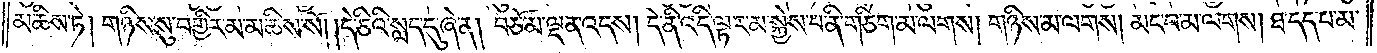མཆིས་ཏེ། གཉིས་སུ་བགྱིར་མ་མཆིས་སོ། །དེ་ཅིའི་སླད་དུ་ཞེ་ན། བཅོམ་ལྡན་འདས། དེ་ནི་འདི་ལྟར་མ་སྐྱེས་པ་ནི་གཅིག་མ་ལགས། གཉིས་མ་ལགས། མང་བ་མ་ལགས། ཐ་དད་པ་མ་
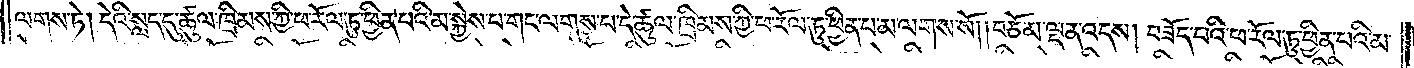ལགས་ཏེ། དེའི་སླད་དུ་ཚུལ་ཁྲིམས་ཀྱི་ཕ་རོལ་ཏུ་ཕྱིན་པའི་མ་སྐྱེས་པ་གང་ལགས་པ་དེ་ཚུལ་ཁྲིམས་ཀྱི་ཕ་རོལ་ཏུ་ཕྱིན་པ་མ་ལགས་སོ། །བཅོམ་ལྡན་འདས། བཟོད་པའི་ཕ་རོལ་ཏུ་ཕྱིན་པའི་མ་
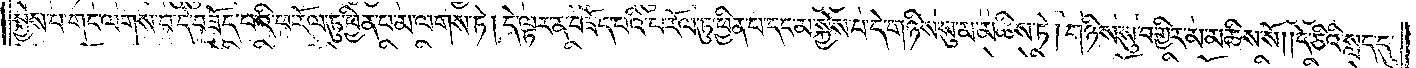སྐྱེས་པ་གང་ལགས་པ་དེ་བཟོད་པའི་ཕ་རོལ་ཏུ་ཕྱིན་པ་མ་ལགས་ཏེ། དེ་ལྟར་ན་བཟོད་པའི་ཕ་རོལ་ཏུ་ཕྱིན་པ་དང་མ་སྐྱེས་པ་དེ་གཉིས་སུ་མ་མཆིས་ཏེ། གཉིས་སུ་བགྱིར་མ་མཆིས་སོ། །དེ་ཅིའི་སླད་དུ་
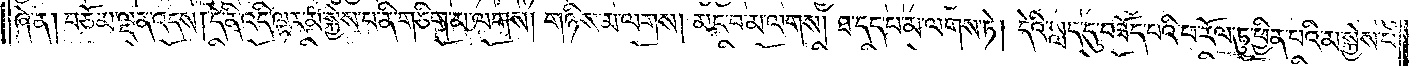ཞེ་ན། བཅོམ་ལྡན་འདས། དེ་ནི་འདི་ལྟར་མ་སྐྱེས་པ་ནི་གཅིག་མ་ལགས། གཉིས་མ་ལགས། མང་བ་མ་ལགས། ཐ་དད་པ་མ་ལགས་ཏེ། དེའི་སླད་དུ་བཟོད་པའི་ཕ་རོལ་ཏུ་ཕྱིན་པའི་མ་སྐྱེས་པ་
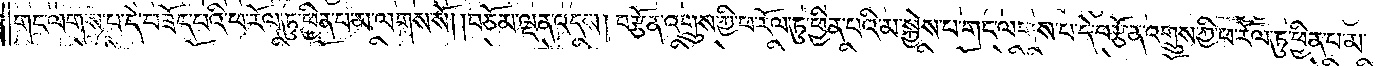གང་ལགས་པ་དེ་བཟོད་པའི་ཕ་རོལ་ཏུ་ཕྱིན་པ་མ་ལགས་སོ། །བཅོམ་ལྡན་འདས། བརྩོན་འགྲུས་ཀྱི་ཕ་རོལ་ཏུ་ཕྱིན་པའི་མ་སྐྱེས་པ་གང་ལགས་པ་དེ་བརྩོན་འགྲུས་ཀྱི་ཕ་རོལ་ཏུ་ཕྱིན་པ་མ་
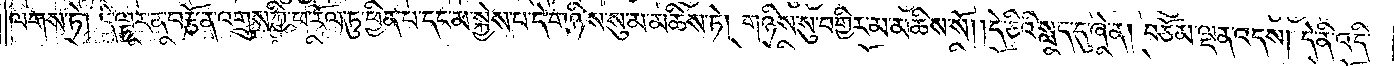ལགས་ཏེ། དེ་ལྟར་ན་བརྩོན་འགྲུས་ཀྱི་ཕ་རོལ་ཏུ་ཕྱིན་པ་དང་མ་སྐྱེས་པ་དེ་གཉིས་སུ་མ་མཆིས་ཏེ། གཉིས་སུ་བགྱིར་མ་མཆིས་སོ། །དེ་ཅིའི་སླད་དུ་ཞེ་ན། བཅོམ་ལྡན་འདས། དེ་ནི་འདི་
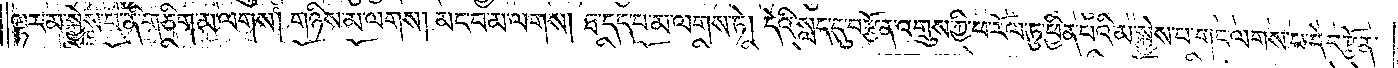ལྟར་མ་སྐྱེས་པ་ནི་གཅིག་མ་ལགས། གཉིས་མ་ལགས། མང་བ་མ་ལགས། ཐ་དད་པ་མ་ལགས་ཏེ། དེའི་སླད་དུ་བརྩོན་འགྲུས་ཀྱི་ཕ་རོལ་ཏུ་ཕྱིན་པའི་མ་སྐྱེས་པ་གང་ལགས་པ་དེ་བརྩོན་
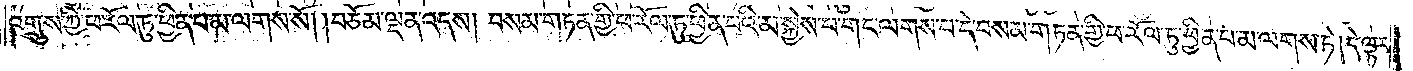འགྲུས་ཀྱི་ཕ་རོལ་ཏུ་ཕྱིན་པ་མ་ལགས་སོ། །བཅོམ་ལྡན་འདས། བསམ་གཏན་གྱི་ཕ་རོལ་ཏུ་ཕྱིན་པའི་མ་སྐྱེས་པ་གང་ལགས་པ་དེ་བསམ་གཏན་གྱི་ཕ་རོལ་ཏུ་ཕྱིན་པ་མ་ལགས་ཏེ། དེ་ལྟར་
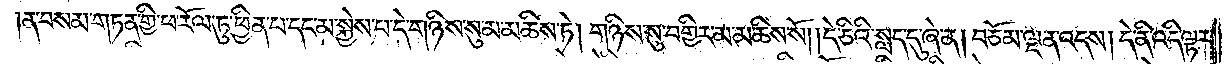ན་བསམ་གཏན་གྱི་ཕ་རོལ་ཏུ་ཕྱིན་པ་དང་མ་སྐྱེས་པ་དེ་གཉིས་སུ་མ་མཆིས་ཏེ། གཉིས་སུ་བགྱིར་མ་མཆིས་སོ། །དེ་ཅིའི་སླད་དུ་ཞེ་ན། བཅོམ་ལྡན་འདས། དེ་ནི་འདི་ལྟར་
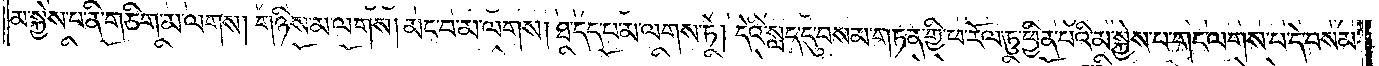མ་སྐྱེས་པ་ནི་གཅིག་མ་ལགས། གཉིས་མ་ལགས། མང་བ་མ་ལགས། ཐ་དད་པ་མ་ལགས་ཏེ། དེའི་སླད་དུ་བསམ་གཏན་གྱི་ཕ་རོལ་ཏུ་ཕྱིན་པའི་མ་སྐྱེས་པ་གང་ལགས་པ་དེ་བསམ་
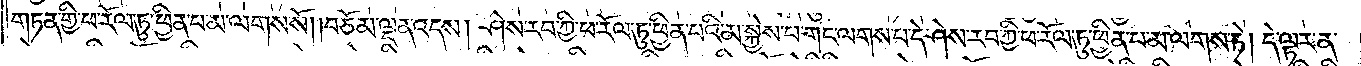གཏན་གྱི་ཕ་རོལ་ཏུ་ཕྱིན་པ་མ་ལགས་སོ། །བཅོམ་ལྡན་འདས། ཤེས་རབ་ཀྱི་ཕ་རོལ་ཏུ་ཕྱིན་པའི་མ་སྐྱེས་པ་གང་ལགས་པ་དེ་ཤེས་རབ་ཀྱི་ཕ་རོལ་ཏུ་ཕྱིན་པ་མ་ལགས་ཏེ། དེ་ལྟར་ན་
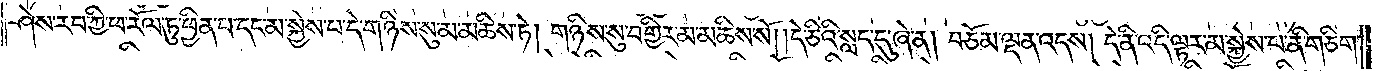ཤེས་རབ་ཀྱི་ཕ་རོལ་ཏུ་ཕྱིན་པ་དང་མ་སྐྱེས་པ་དེ་གཉིས་སུ་མ་མཆིས་ཏེ། གཉིས་སུ་བགྱིར་མ་མཆིས་སོ། །དེ་ཅིའི་སླད་དུ་ཞེ་ན། བཅོམ་ལྡན་འདས། དེ་ནི་འདི་ལྟར་མ་སྐྱེས་པ་ནི་གཅིག་
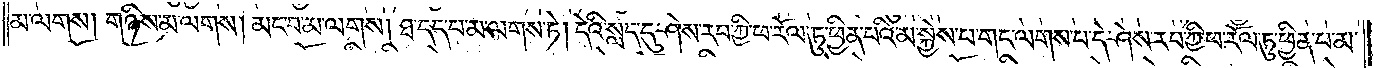མ་ལགས། གཉིས་མ་ལགས། མང་བ་མ་ལགས། ཐ་དད་པ་མ་ལགས་ཏེ། དེའི་སླད་དུ་ཤེས་རབ་ཀྱི་ཕ་རོལ་ཏུ་ཕྱིན་པའི་མ་སྐྱེས་པ་གང་ལགས་པ་དེ་ཤེས་རབ་ཀྱི་ཕ་རོལ་ཏུ་ཕྱིན་པ་མ་
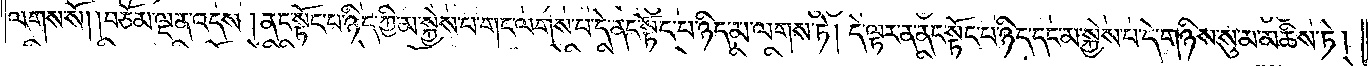ལགས་སོ། །བཅོམ་ལྡན་འདས། ནང་སྟོང་པ་ཉིད་ཀྱི་མ་སྐྱེས་པ་གང་ལགས་པ་དེ་ནང་སྟོང་པ་ཉིད་མ་ལགས་ཏེ། དེ་ལྟར་ན་ནང་སྟོང་པ་ཉིད་དང་མ་སྐྱེས་པ་དེ་གཉིས་སུ་མ་མཆིས་ཏེ།
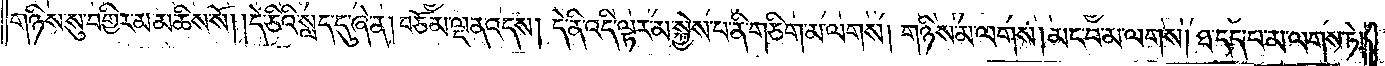གཉིས་སུ་བགྱིར་མ་མཆིས་སོ། །དེ་ཅིའི་སླད་དུ་ཞེ་ན། བཅོམ་ལྡན་འདས། དེ་ནི་འདི་ལྟར་མ་སྐྱེས་པ་ནི་གཅིག་མ་ལགས། གཉིས་མ་ལགས། མང་བ་མ་ལགས། ཐ་དད་པ་མ་ལགས་ཏེ།
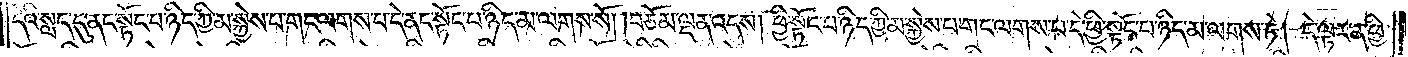དེའི་སླད་དུ་ནང་སྟོང་པ་ཉིད་ཀྱི་མ་སྐྱེས་པ་གང་ལགས་པ་དེ་ནང་སྟོང་པ་ཉིད་མ་ལགས་སོ། །བཅོམ་ལྡན་འདས། ཕྱི་སྟོང་པ་ཉིད་ཀྱི་མ་སྐྱེས་པ་གང་ལགས་པ་དེ་ཕྱི་སྟོང་པ་ཉིད་མ་ལགས་ཏེ། དེ་ལྟར་ན་ཕྱི་
